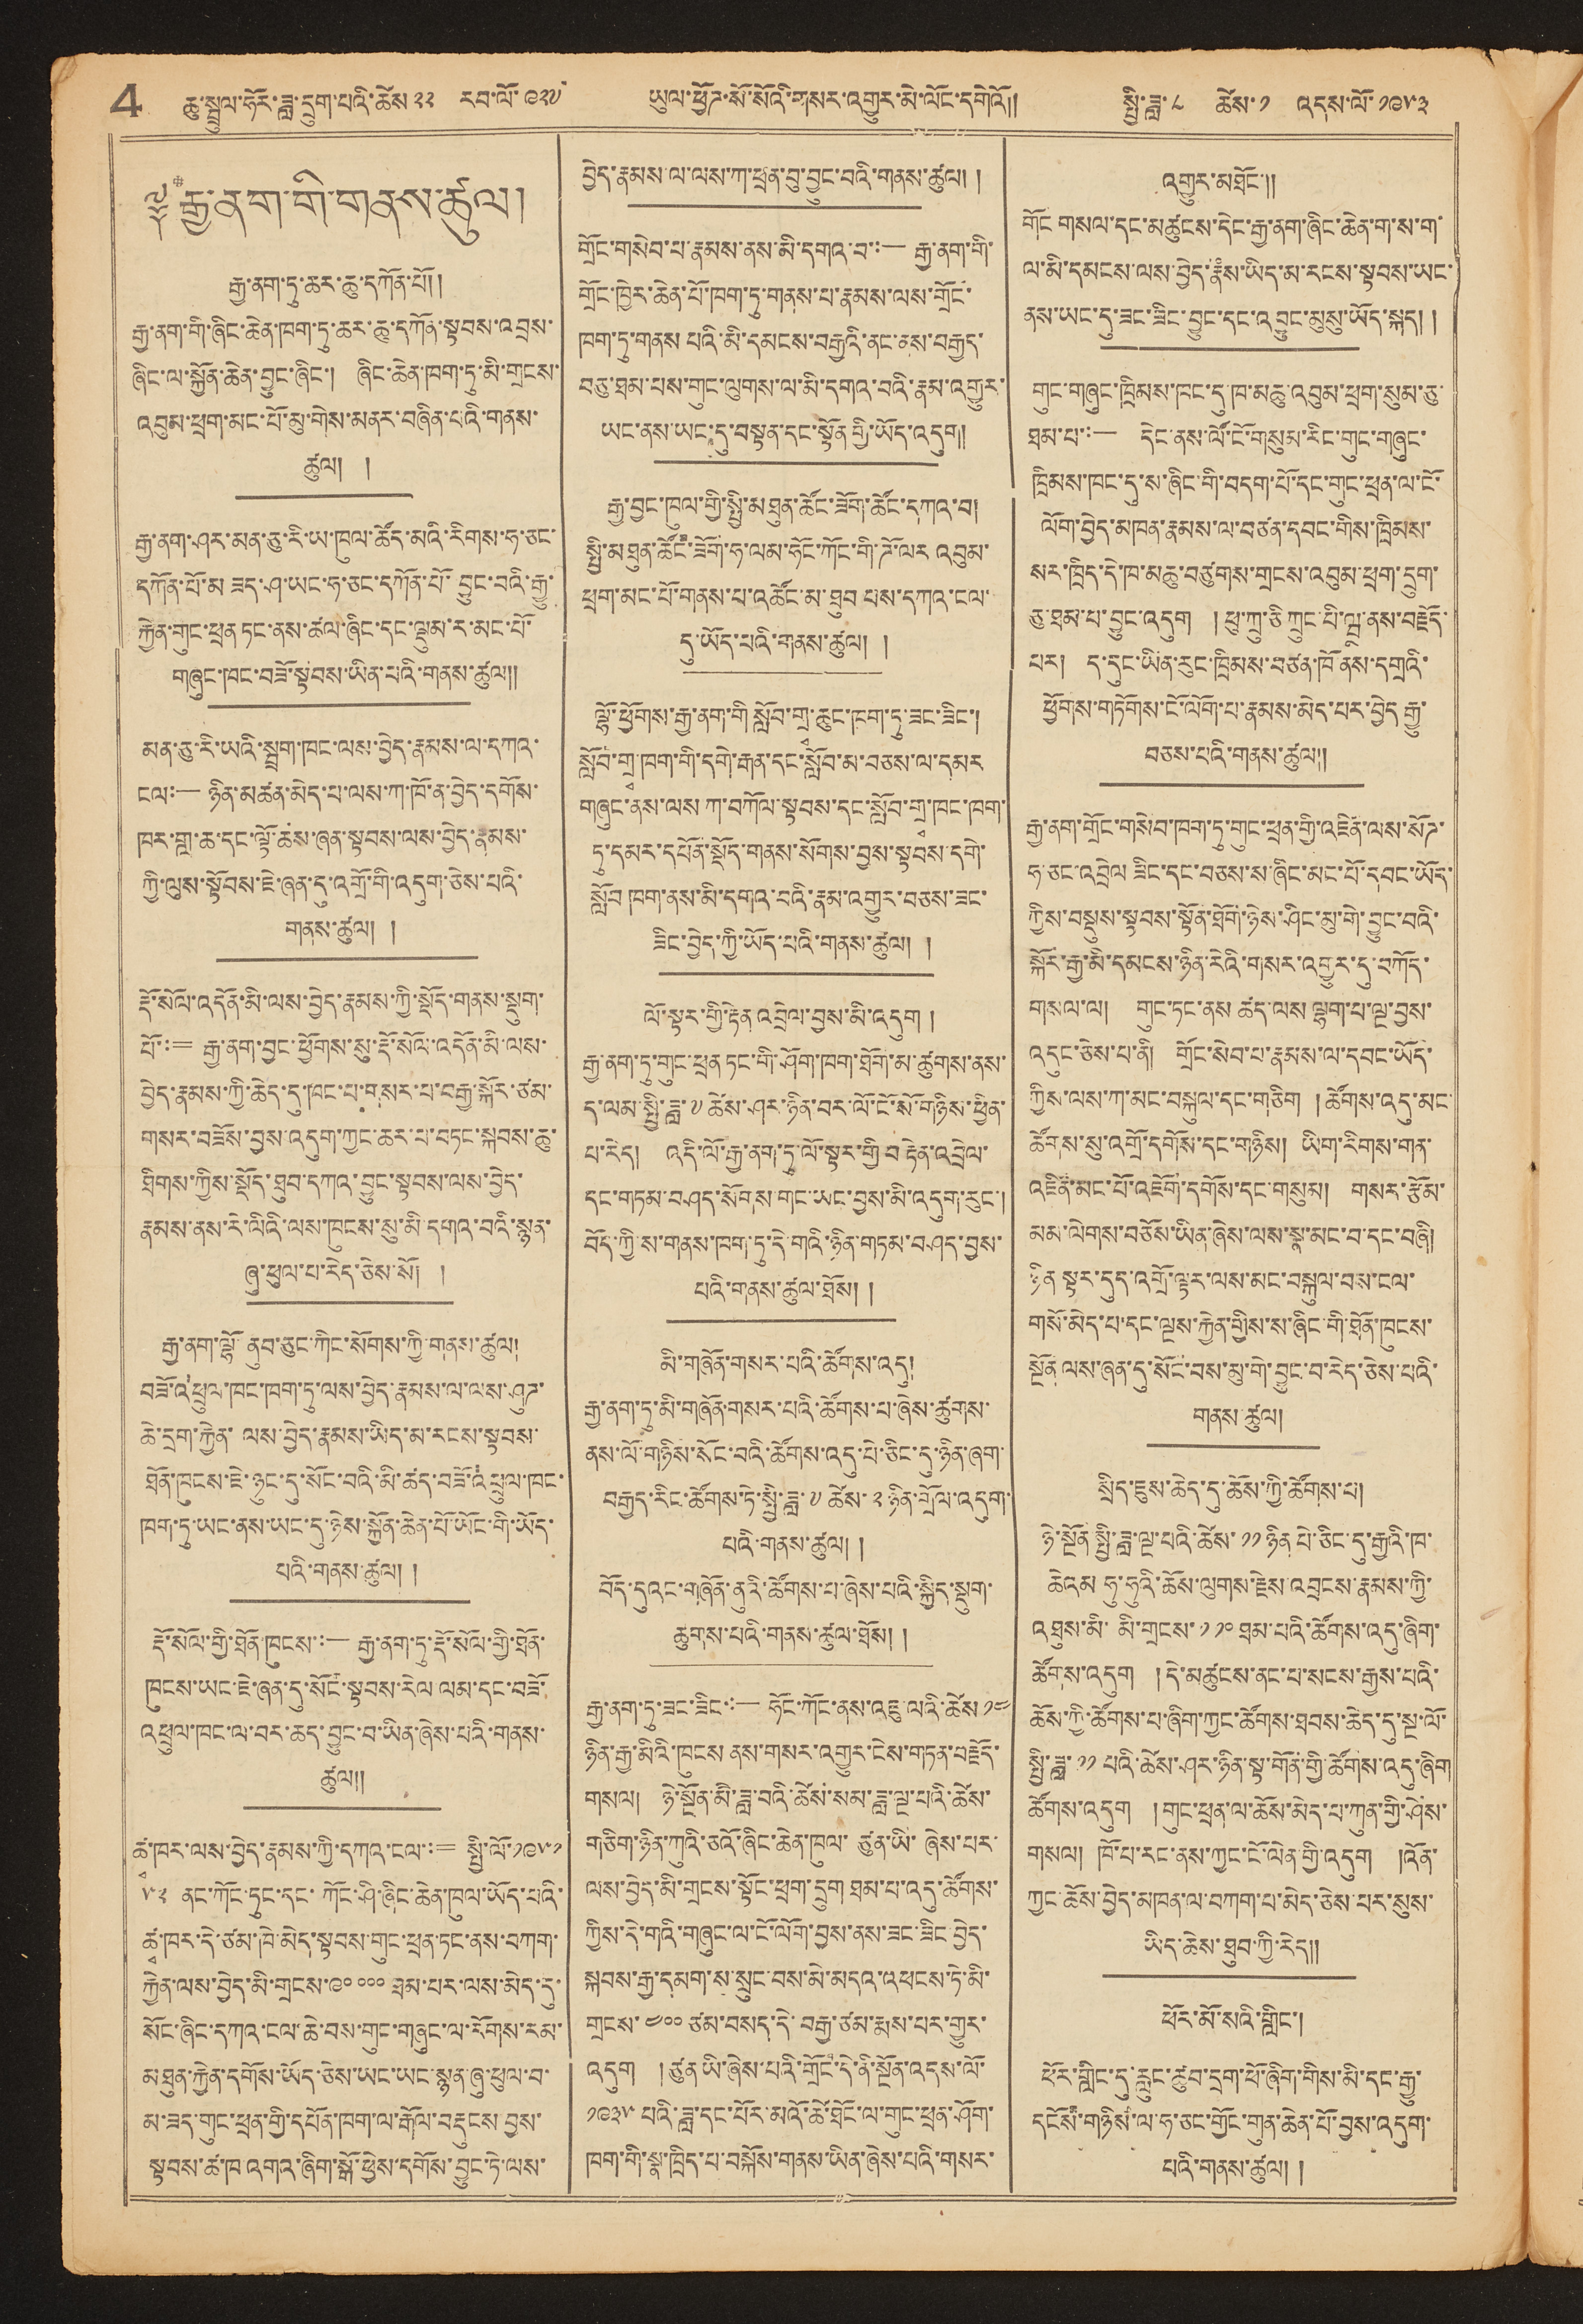4 ཆུ་སྦྲུལ་ཧོར་ཟླ་དྲུག་པའི་ཚེས་ ༢༢ རབ་ལོ་ ༩༢༧ ཡུལ་ཕྱོཌ་སོ་སོའི་གསར་འགྱུར་མེ་ལོང་དགེའོ།། སྤྱི་ཟླ་ ༨ ཚེས་༡ འདས་ལོ་༡༩༥༣
༈ རྒྱ་ནག་གི་གནས་ཚུལ།
རྒྱ་ནག་ཏུ་ཆར་ཆུ་དཀོན་པོ།།
རྒྱ་ནག་གི་ཞིང་ཆེན་ཁག་ཏུ་ཆར་ཆུ་དཀོན་སྟབས་འབྲས་
ཞིང་ལ་སྐྱོན་ཆེན་བྱུང་ཞིང་། ཞིང་ཆེན་ཁག་ཏུ་མི་གྲངས་
འབུམ་ཕྲག་མང་པོ་མུ་གེས་མནར་བཞིན་པའི་གནས་
ཚུལ། །
རྒྱ་ནག་ཤར་མན་ཅུ་རི་ཡ་ཁུལ་ཚོད་མའི་རིགས་ཧ་ཅང་
དཀོན་པོ་མ་ཟད་ཤ་ཡང་ཧ་ཅང་དཀོན་པོ་བྱུང་བའི་རྒྱུ་
རྐྱེན་གུང་ཕྲན ཏང་ནས་ཚལ་ཞིང་དང་སྡུམ་ར་མང་པོ་
གཞུང་ཁང་བཟོ་སྟབས་ཡིན་པའི་གནས་ཚུལ།།
མན་ཅུ་རི་ཡའི་སྦྲག་ཁང་ལས་བྱེད་རྣམས་ལ་དཀའ་
ངལ:—ཉིན་མཚན་མེད་པ་ལས་ཀ་ཁོ་ན་བྱེད་དགོས་
ཁར་གླ་ཆ་དང་ལྟོ་ཆས་ཞན་སྟབས་ལས་བྱེད་རྣམས་
ཀྱི་ལུས་སྟོབས་ཇེ་ཞན་དུ་འགྲོ་གི་འདུག་ཅེས་པའི་
གནས་ཚུལ། །
རྡོ་སོལ་འདོན་མི་ལས་བྱེད་རྣམས་ཀྱི་སྡོད་གནས་སྡུག་
པོ་:= རྒྱ་ནག་བྱང་ཕྱོགས་སུ་རྡོ་སོལ་འདོན་མི་ལས་
བྱེད་རྣམས་ཀྱི་ཆེད་དུ་ཁང་པ་གསར་པ་བརྒྱ་སྐོར་ཙམ་
གསར་བཟོས་བྱས་འདུག་ཀྱང་ཆར་པ་བཏང་སྐབས་ཆུ་
ཐིགས་ཀྱིས་སྡོད་ཐུབ་དཀའ་བྱུང་སྟབས་ལས་བྱེད་
རྣམས་ནས་རི་ལིའི་ལས་ཁུངས་སུ་མི་དགའ་བའི་སྙན་
ཞུ་ཕུལ་པ་རེད་ཅེས་སོ། །
རྒྱ་ནག་ལྷོ་ནུབ་ཅུང་ཀིང་སོགས་ཀྱི་གནས་ཚུལ།
བཟོ་འཕྲུལ་ཁང་ཁག་ཏུ་ལས་བྱེད་རྣམ་སླ་ལས་ཤུཌ་
ཆེ་དྲག་རྐྱེན་ལས་བྱེད་རྣམས་ཡིད་མ་རངས་སྟབས་
ཐོན་ཁུངས་ཇེ་ཉུང་དུ་སོང་བའི་མི་ཚད་བཟོ་འཕྲུལ་ཁང་
ཁག་ཏུ་ཡང་ནས་ཡང་དུ་ཉེས་སྐྱོན་ཆེན་པོ་ཡོང་གི་ཡོད་
པའི་གནས་ཚུལ།།
རྡོ་སོལ་གྱི་ཐོན་ཁུངས་:— རྒྱ་ནག་ཏུ་རྡོ་སོལ་གྱི་ཐོན་
ཁུངས་ཡང་ཇེ་ཞན་དུ་སོང་སྟབས་རེལ ལམ་དང་བཟོ་
འཕྲུལ་ཁང་ལ་བར་ཆད་བྱུང་བ་ཡིན་ཞེས་པའི་གནས་
ཚུལ།།
ཚྭ་ཁར་ལས་བྱེད་རྣམས་ཀྱི་དཀའ་ངལ་:= སྤྱི་ལོ་༡༩༥༡
༥༢ ནང་ཀོང་ཏུང་དང་ཀོང་ཤི་ཞིང་ཆེན་ཁུལ་ཡོད་པའི་
ཚྭ་ཁར་དེ་ཙམ་ཁེ་མེད་སྟབས་གུང་ཕྲན་ཏང་ནས་བཀག་
རྐྱེན་ལས་བྱེད་མི་གྲངས་༩༠༠༠༠ ཐམ་པར་ལས་མེད་ཅུ་
སོང་ཞིང་དཀའ་ངལ་ཆེ་བས་གུང་གཞུང་ལ་རོགས་རམ་
མཐུན་རྐྱེན་དགོས་ཡོད་ཅེས་ཡང་ཡང་སྙན་ཞུ་ཕུལ་བ་
མ་ཟད་གུང་ཕྲན་གྱོ་དཔོན་ཁག་ལ་རྒོལ་བརྡུངས་བྱས་
སྟབས་ཚ་ཁ འགའ་ཞིག་སྒོ་ཕྱེས་དགོས་བྱུང་ཏེ་ལས་
བྱེད་རྣམས་ལ་ལས་ཀ་ཕྲན་བུ་བྱུང་བའི་གནས་ཚུལ།།
གྲོང་གསེབ་ཨོ་རྣམས་ནས་མི་དགའ་བ་:— རྒྱ་ནག་གི་
གྲོང་ཁྱེར་ཆེན་པོ་ཁག་ཏུ་གནས་པ་རྣམས་ལས་གྲོང་
ཁག་ཏུ་གནས པའི་མི་དམངས་བརྒྱའི་ནང་མས་བརྒྱད་
བཅུ་ཐམ་པས་གུང་ལུགས་ལ་མི་དགའ་བའི་རྣམ་འགྱུར་
ཡང་ནས་ཡང་དུ་བསྟན་དང་སྟོན་གྱི་ཡོད་འདུག།།
རྒྱ་བྱང་ཁུལ་གྱི་སྤྱི་མཐུན་ཚོང་ཟོག་ཚོང་དཀའ་བ།
སྤྱི་མཐུན་ཚོང་ཟོག་ཧ་ལམ་ཧོང་ཀོང་གི་ཌོ་ལར འབུམ་
ཕྲག་མང་པོ་གནས་པ་འཚོང་མ་ཐུབ པས་དཀའ་ངལ་
དུ་ཡོད་པའི་གནས་ཚུལ། །
ལྷོ་ཕྱོགས་རྒྱ་ནག་གི་སློབ་གྲྭ་ཆུང་ཁག་ཏུ་ཟང་ཟིང་།
སློབ་གྲྭ་ཁག་གོ་དགེ་རྒན་དང་སློབ་མ་བཅས་ལ་དམར
གཞུང་ནས་ལས ཀ་བཀོལ་སྟབས་དང་སློབ་གྲྭ་ཁང་ཁག་
ཏུ་དམར་དཔོན་སྡོད་གནས་སོགས་བྱས་སྟབས་དགེ་
སློབ་ཁག་ནས་མི་དགའ་བའི་རྣམ་འགྱུར་བཅས་ཟང་
ཟིང་བྱེད་ཀྱི་ཡོད་གནས་ཚུལ། །
ལོ་སྟར་གྱི་རྟེན འབྲེལ་བྱས་མི་འདུག །
རྒྱ་ནག་ཏུ་གུང་ཕྲན ཏང་གི་ཤོག་ཁག་ཐོག་མ་ཚུགས་ནས་
ད་ལམ་སྤྱི་ཟླ་༧ཚེས་ཤར་ཉིན་བར་ལོ་ངོ་སོ་གཉིས་ཕྱིན་
པ་རེད། འདི་ལོ་རྒྱ་ནག་ཏུ་ལོ་སྟར་གྱི བརྟེན་འབྲེལ་
དང་གཏམ་བཤད་སོགས་གང་ཡང་བྱས་མི་འདུག་རུང་།
བོད་ཀྱི་ས་གནས་ཁག་ཏུ་དེ་གའི་ཉིན་གཏམ་བཤད་བྱས་
པའི་གནས་ཚུལ་ཐོས།།
མི་གཞོན་གསར་པའི་ཚོགས་འདུ།
རྒྱ་ནག་ཏུ་མི་གཞོན་གསར་པའི་ཚོགས་པ་ཞེས་ཚུགས་
ནས་ལོ་གཉིས་སོང་བའི་ཚོགས་འདུ་པེ་ཅིང་དུ་ཉིན་ཞག་
བརྒྱད་རིང་ཚོགས་ཏེ་སྤྱི་ཟླ་༧ཚེས་༢ཉིན་གྲོལ་འདུག་
པའི་གནས་ཚུལ། །
བོད་དུའང་གཞོན་ནུའི་ཚོགས་པ་ཞེས་པའི་སྐྱིད་སྡུག་
ཚུགས་པའི་གནས་ཚུལ་ཐོས།།
རྒྱ་ནག་ཏུ་ཟང་ཟིང་:— ཧོར་ཀོང་ནས་འཇུ་ལའི་ཚེས ༡༤
ཉིན་རྒྱ་མིའི་ཁུངས ནས་གསར་འགྱུར་ངེས་གཏན་བརྗོད་
གསལ། ཉེ་སྔོན་མི་ཟླ་བའི་ཚེས་སམ་ཟླ་ལྔ་པའི་ཚེས་
གཅིག་ཉིན་ཀུའི་ཅའོ་ཞིང་ཆེན་ཁུལ་ཙུན་ཡི་ཞེས་པར་
ལས་བྱེད་མི་གྲངས་སྟོང་ཕྲག་དྲུག ཐམ་པ་འདུ་ཚོགས་
ཀྱིས་དེ་གའི་གཞུང་ལ་ངོ་ལག་བྱས་ནས་ཟང་ཟིང་བྱེད་
སྐབས་རྒྱ་དམག་ས་སྲུང་བས་མེ་མདའ་འཕངས་ཏེ་མི་
གྲངས་༤༠༠ཙམ་བསད་དེ་བརྒྱ་ཙམ་རྨས་པར་གྱུར་
འདུག །རྩུན ཡི་ཞེས་པའི་གྲོང་དེ་ནི་སྔོན་འདས་ལོ་
༡༩༣༥ པའི་ཟླ་དང་པོར་མའོ་ཚེ་ཐོང་ལ་གུང་ཕྲན་ཤོག་
ཁག་གི་སྣ་ཁྲིད་པ་བསྐོས་གནས་ཡིན་ཞེས་པའི་གསར་
འགྱུར་མཐོང་།།
གོང གསལ་དང་མཚུངས་དེང་རྒྱ་ནག་ཞིང་ཆེན་ག་ས་ག་
ལ་མི་དམངས་ལས་བྱེད་རྣཾས་ཡིད་མ་རངས་སྟབས་ཡང་
ནས་ཡང་དུ་ཟང་ཟིང་བྱུང་དང་འབྱུང་མུསུ་ཡོད་སྐད།།
གུང་གཞུང་ཁྲིམས་ཁང་དུ་ཁ་མཆུ་འབུམ་ཕྲག་སུམ་ཅུ་
ཐམ་པ་:— དེང་ནས་ལོ་ངོ་གསུམ་རིང་གུང་གཞུང་
ཁྲིམས་ཁང་དུ་ས་ཞིང་གི་བདག་པོ་དང་གུང་ཕྲན་ལ་ངོ་
ལོག་བྱེད་མཁན་རྣམས་ལ་བཙན་དབང་གིས་ཁྲིམས་
སར་ཁྲིད་དེ་ཁ་མཆུ་བཙུགས་གྲངས་འབུམ་ཕྲག་དྲུག་
ཅུ་ཐམ་པ་བྱུང་འདུག །ཕུ་ཀྲུ་ཅི ཀྲུང་པི་ཝ་ནས་བརྗོད་
པར། ད་དུང་ཡིན་རུང་ཁྲིམས་བཙན་ཁོ་ནས་དགྲའི་
ཕྱོགས་གཏོགས་ངོ་ལོག་པ་རྣམས་མེད་པར་བྱེད་རྒྱུ་
བཅས་པའི་གནས་ཚུལ།།
རྒྱ་ནག་གྲོང་གསེབ་ཁག་ཏུ་གུང་ཕྲན་གྱི་འཛིན་ལས་སོཌ་
ཧ་ཅང་འབྲེལ ཟིང་དང་བཅས་ས་ཞིང་མང་པོ་དབང་ཡོད་
ཀྱིས་བསྡུས་སྟབས་སྟོན་ཐོག་ཉེས་ཤིང་མུ་གེ་བྱཽང་བའི་
སྐོར་རྒྱ་མི་དམངས་ཉིན་རེའི་གསར་འགྱུར་དུ་བཀོད་
གསལ་ལ། གུང་ཏང་ནས ཚད་ལས ལྷག་པ་ལྔ་བྱས་
འདུང་ཅེས་པ་ནི། གྲོང་སེབ་པ་རྣམས་ལ་དབང་ཡོད་
ཀྱིས་ལས་ཀ་མང་བསྐུལ་དང་གཅིག །ཚོགས་འདུ་མང་
ཚོགས་སུ་འགྲོ་དགོས་དང་གཉིས། ཡིག་རིགས་གན་
འཛིན་མང་པོ་འཇོག་དགོས་དང་གསུམ། གསར་རྩོམ་
མམ་ལེགས་བཅོས་ཡིན་ཞེས་ལས་སྣ་མང་བ་དང་བཞི།
ཉིན ལྟར་དུད་འགྲོ་ལྟར་ལས་མང་བསྐུལ་བས་ངལ་
གསོ་མེད་པ་དང་ལྔས་རྐྱེན་གྱིས་ས་ཞིང་གི་ཐོན་ཁུངས་
སྔོན་ལས་ཞན་དུ་སོང་བས་མུ་གེ་བྱུང་བ་རེད་ཅེས་པའི་
གནས་ཚུལ།
སྲིད་ཇུས་ཆེད་དུ་ཆོས་ཀྱི་ཚོགས་པ།
ཉེ་སྔོན སྤྱི་ཟླ་ལྔ་པའི་ཚེས་༡༡ཉིན པེ་ཅིང་དུ་རྒྱའི་ཁ་
ཆེའམ ཧུ་ཧུའི་ཆོས་ལུགས་རྗེས་འབྲངས་རྣམས་ཀྱི་
འཐུས་མི་མི་གྲངས་༡༡༠ ཐམ་པའི་ཚོགས་འདུ་ཞིག་
ཚོགས་འདུག །དེ་མཚུངས་ནང་པ་སངས་རྒྱས་པའི་
ཆོས་ཀྱི་ཚོགས་པ་ཞིག་ཀྱང་ཚོགས་ཐབས་ཆེད་དུ་སྔ་ལོ་
སྤྱི་ཟླ་ ༡༡ པའི་ཚེས་ཤར་ཉིན་སྟ་གོན་གྱི་ཚོགས་འདུ་ཞིག
ཚོགས་འདུག །གུང་ཕྲན་ལ་ཆོས་མེད་པ་ཀུན་གྱི་ཤེས་
གསལ། ཁོ་པ་རང་ནས་ཀྱང་ངོ་ལེན་གྱི་འདུག །འོན་
ཀྱང་ཆོས་བྱེད་མཁན་ལ་བཀག་པ་མེད་ཅེས་པར་སུས་
ཡིད་ཆེས་ཐུབ་ཀྱི་རེད།།
ཕོར་མོ་སའི་གླིང་།
ཕོར་གླིང་དུ་རླུང་ཚུབ་དྲག་ཕོ་ཞིག་གིས་མི་དང་རྒྱུ་
དངོས་གཉིས་ལ་ཧ་ཅང་གྱོང་གུན་ཆེན་པོ་བྱས་འདུག་
པའི་གནས་ཚུལ། །
